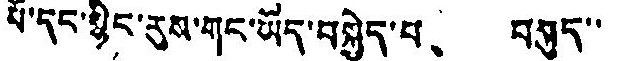པོ་དང་སྙིང་རུས་གང་ཡོད་བསྐྱེད་པ、 བསུད་་
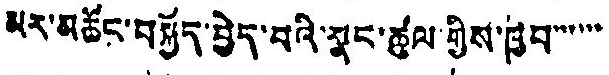མར་མཆོང་བསྐྱོད་བྱེད་པའི་མྣང་ཚུལ་གྱིས་ཁྱབ་་་་་་
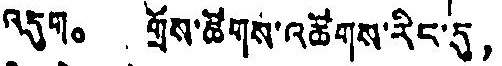འདུག。 གྲོས་ཚོགས་འཚོགས་རིང་དུ，
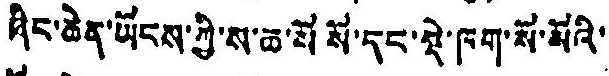ཞིང་ཆེན་ཡོངས་ཀྱི་ས་ཆ་སོ སོ་དང་སྡེ་ཁག་སོ་སོའི་
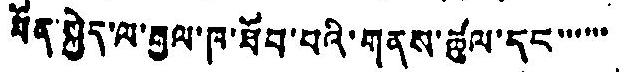ཐོན་སྐྱེད་ལ་རྒྱལ་ཁ་ཐོབ་པའི་གནས་ཚུལ་དང་་་་་་
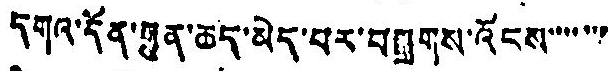དགའ་དོན་རྒྱུན་ཆད་མེད་པར་བཤུགས་འོངས་་་་་་་
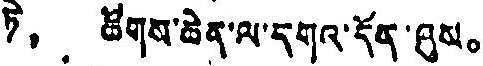ཏེ， ཚོགས་ཆེན་ལ་དགའ་དོན་ཞུས。
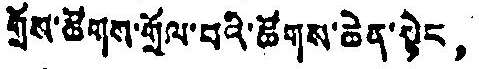གྲོས་ཚོགས་གྲོལ་བའི་ཚོགས་ཆེན་སྟེང，
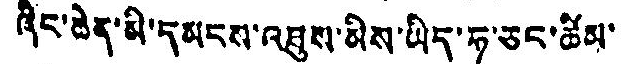ཞིང་ཆེན་མི་དམངས་འཐུས་མིས་ཡིད་ཧ་ཅང་ཚིམ་་
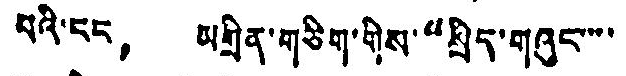པའི་ངང， མགྲིན་གཅིག་གིས་“སྲིད་གཞུང་་་་
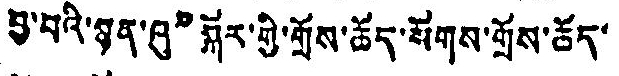བྱ་བའི་ཉན་ཞུ”སྐོར་གྱི་གྲོས་ཆོད་སོགས་གྲོས་ཆོད་
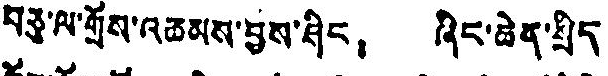བཅུ་ལ་གྲོས་འཆམས་བྱས་ཤིང； ཞིང་ཆེན་སྲིད་
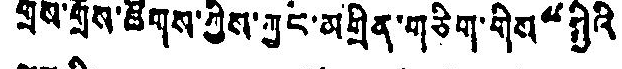གྲོས་གྲོས་ཚོགས་ཀྱིས་ཀྱང་མགྲིན་གཅིག་གིས“སྤྱིའི་
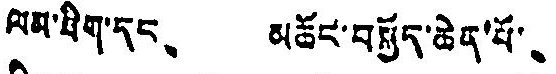ལམ་ཐིག་དང、 མཆོང་བསྐྱོད་ཆེན་པོ་、
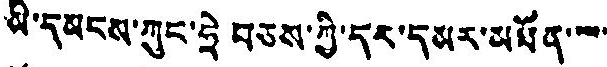མི་དམངས་ཀུང་ཧྲེ བཅས་ཀྱི་དར་དམར་མཐོན་་་་་
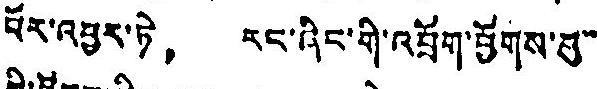བོར་འཕྱར་ཏེ， རང་ཞིང་གི་འབྲོག་ཕྱོགས་སུ་་
